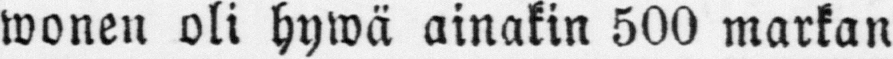wonen oli hywä ainakin 500 markan
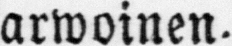arwoinen.
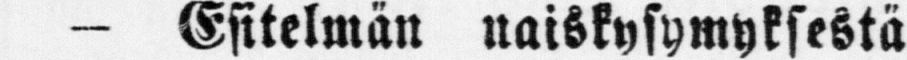— Esitelmän naiskysymyksestä
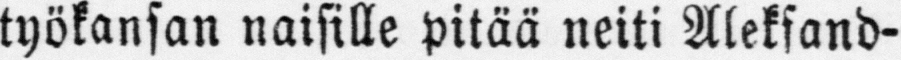työkansan naisille pitää neiti Aleksand-
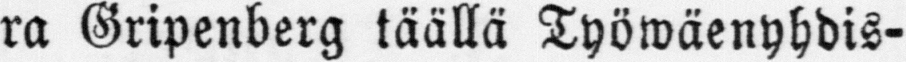ra Gripenberg täällä Työwäenyhdis-
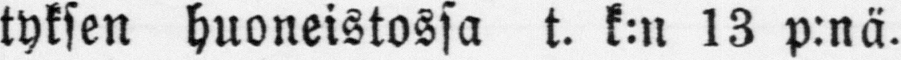tyksen huoneistossa t. k:n 13 p:nä.
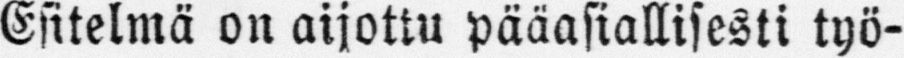Esitelmä on aijottu pääasiallisesti työ-
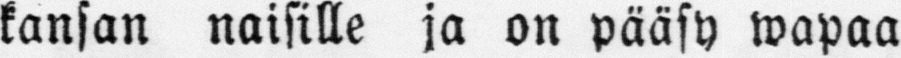kansan naisille ja on pääsy wapaa
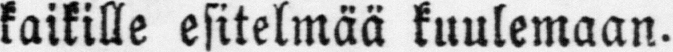kaikille esitelmää kuulemaan.
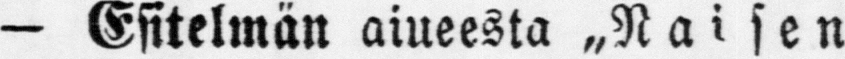— Esitelmän aineesta „Naisen
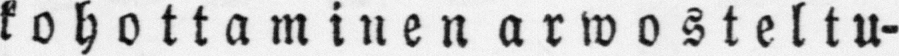kohottaminen arwosteltu-
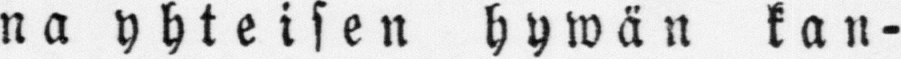na yhteisen hywän kan-
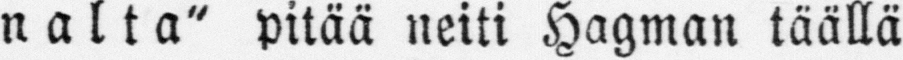nalta" pitää neiti Hagman täällä
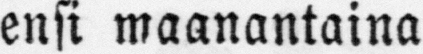ensi maanantaina.
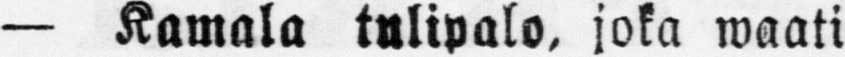— Kamala tulipalo, joka waati
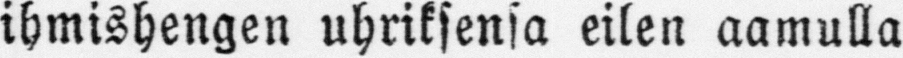ihmishengen uhriksensa eilen aamulla
